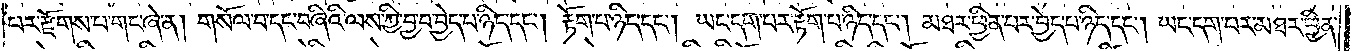པར་རྫོགས་པ་གང་ཞེ་ན། གསོལ་བ་དང་བཞིའི་ལས་ཀྱི་བྱ་བ་བྱེད་པ་ཉིད་དང༌། རྟོག་པ་ཉིད་དང༌། ཡང་དག་པར་རྟོག་པ་ཉིད་དང༌། མཐར་ཕྱིན་པར་བྱེད་པ་ཉིད་དང༌། ཡང་དག་པར་མཐར་བྱིན་
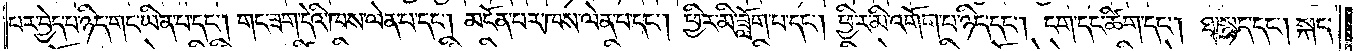པར་བྱེད་པ་ཉིད་གང་ཡིན་པ་དང༌། གང་ཟག་དེའི་ཁས་ལེན་པ་དང༌། མངོན་པར་ཁས་ལེན་པ་དང༌། ཕྱིར་མི་ཟློག་པ་དང༌། ཕྱིར་མི་འགོག་པ་ཉིད་དང༌། ངག་དང་ཚིག་དང༌། ཐ་སྙད་དང༌། སྐད་
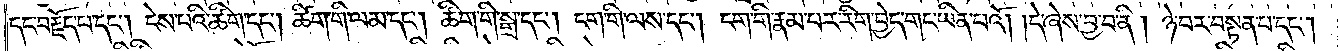དང་བརྗོད་པ་དང༌། ངེས་པའི་ཚིག་དང༌། ཚིག་གི་ལམ་དང༌། ཚིག་གི་སྒྲ་དང༌། ངག་གི་ལས་དང༌། ངག་གི་རྣམ་པར་རིག་བྱེད་གང་ཡིན་པའོ། །དེ་ཞེས་བྱ་བ་ནི། ཉེ་བར་བསྟན་པ་དང༌།
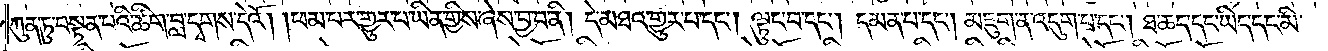ཀུན་ཏུ་བསྟན་པའི་ཚིག་བླ་དྭགས་དེའོ། །ཕམ་པར་གྱུར་པ་ཡིན་གྱིས་ཞེས་བྱ་བ་ནི། དེ་མཐའ་གྱུར་པ་དང༌། ལྟུང་བ་དང༌། དམན་པ་དང༌། མཇུག་ན་འདུག་པ་དང༌། ཐ་ཆད་དང་ཡིད་དང་མི་
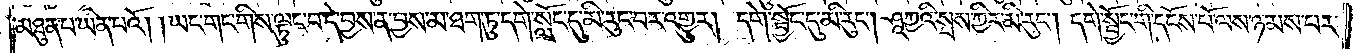མཐུན་པ་ཡིན་པའོ། །ཡང་གང་གིས་ལྟུང་བ་དེ་བྱས་ན་བྱས་མ་ཐག་ཏུ་དགེ་སློང་དུ་མི་རུང་བར་འགྱུར། དགེ་སྦྱོང་དུ་མི་རུང༌། ཤཱཀྱའི་སྲས་ཀྱིར་མི་རུང༌། དགེ་སྦྱོང་གི་དངོས་པོ་ལས་ཉམས་པར་
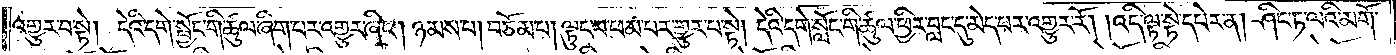འགྱུར་པ་སྟེ། དེའི་དགེ་སྦྱོང་གི་ཚུལ་ཞིག་པར་འགྱུར་ཞིང༌། ཉམས་པ། བཅོམ་པ། ལྟུང་བ་ཕམ་པར་གྱུར་པ་སྟེ། དེའི་དགེ་སློང་གི་ཚུལ་ཕྱིར་བླང་དུ་མེད་པར་འགྱུར་རོ། །འདི་ལྟ་སྟེ་དཔེར་ན། ཤིང་ཏ་ལའི་མགོ་
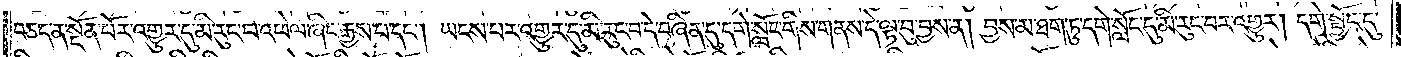བཅད་སྔོན་པོར་འགྱུར་དུ་མི་རུང་བ་འཕེལ་ཞིང་རྒྱས་པ་དང༌། ཡངས་པར་འགྱུར་དུ་མི་རུང་བ་དེ་བཞིན་དུ་དགེ་སློང་གིས་གནས་དེ་ལྟ་བུ་བྱས་ན། བྱས་མ་ཐག་ཏུ་དགེ་སློང་དུ་མི་རུང་བར་འགྱུར། དགེ་སྦྱོང་དུ་
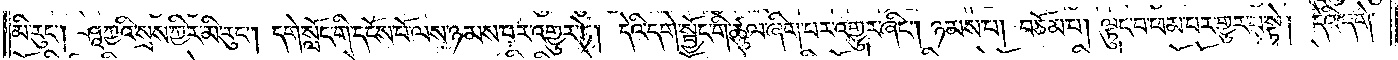མི་རུང༌། ཤཱཀྱའི་སྲས་ཀྱིར་མི་རུང༌། དགེ་སློང་གི་དངོས་པོ་ལས་ཉམས་པར་འགྱུར་ཏེ། དེའི་དགེ་སྦྱོང་གི་ཚུལ་ཞིག་པར་འགྱུར་ཞིང༌། ཉམས་པ། བཅོམ་པ། ལྟུང་བ་ཕམ་པར་གྱུར་པ་སྟེ། དེའི་དགེ་
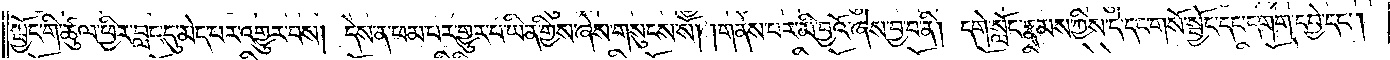སྦྱོང་གི་ཚུལ་ཕྱིར་བླང་དུ་མེད་པར་འགྱུར་བས། དེས་ན་ཕམ་པར་གྱུར་པ་ཡིན་གྱིས་ཞེས་གསུངས་སོ། །གནས་པར་མི་བྱའོ་ཞེས་བྱ་བ་ནི། དགེ་སློང་རྣམས་ཀྱིས་དེ་དང་གསོ་སྦྱོང་དང་དགག་དབྱེ་དང༌།
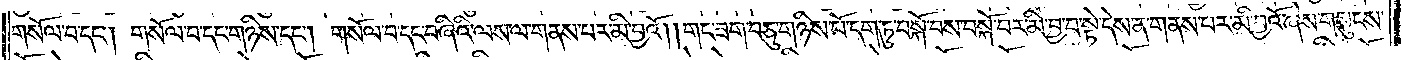གསོལ་བ་དང༌། གསོལ་བ་དང་གཉིས་དང༌། གསོལ་བ་དང་བཞིའི་ལས་ལ་གནས་པར་མི་བྱའོ། །གང་ཟག་བཅུ་གཉིས་པོ་དག་ཏུ་བསྐོ་བས་བསྐོ་བར་མི་བྱ་བ་སྟེ་དེས་ན་གནས་པར་མི་བྱའོ་ཞེས་གསུངས་
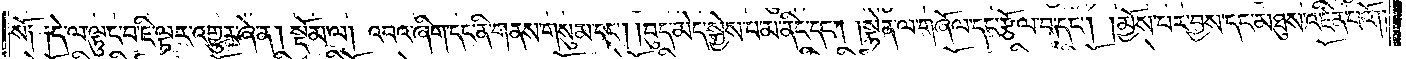སོ༑ ༑དེ་ལ་ལྟུང་བ་ཇི་ལྟར་འགྱུར་ཞེ་ན། སྡོམ་ལ། འབའ་ཞིག་དང་ནི་གནས་གསུམ་དང༌། །བུད་མེད་སྐྱེས་པ་མ་ནིང་དང༌། །སྟེན་ལ་གཞོལ་དང་རྩོལ་བ་དང༌། །མྱོས་པར་བྱས་དང་མཐུས་འཛིན་པའོ༎
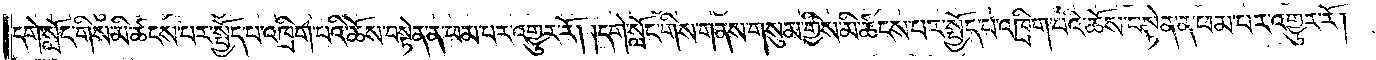དགེ་སློང་གིས་མི་ཚངས་པར་སྤྱོད་པ་འཁྲིག་པའི་ཆོས་བསྟེན་ན་ཕམ་པར་འགྱུར་རོ། །དགེ་སློང་གིས་གནས་གསུམ་གྱིས་མི་ཚངས་པར་སྤྱོད་པ་འཁྲིག་པའི་ཆོས་བསྟེན་ན་ཕམ་པར་འགྱུར་རོ། །
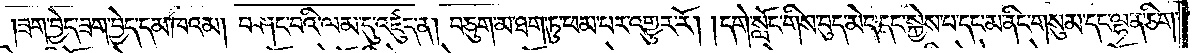།ཟག་བྱེད་ཟག་བྱེད་དམ་ཁའམ། བཤང་བའི་ལམ་དུ་འཛུད་ན། བཅུག་མ་ཐག་ཏུ་ཕམ་པར་འགྱུར་རོ། །དགེ་སློང་གིས་བུད་མེད་དང་སྐྱེས་པ་དང་མ་ནིང་གསུམ་དང་ལྷན་ཅིག་
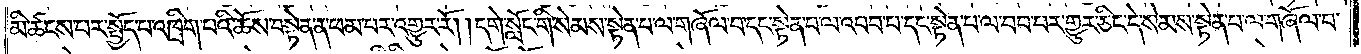མི་ཚངས་པར་སྤྱོད་པ་འཁྲིག་པའི་ཆོས་བསྟེན་ན་ཕམ་པར་འགྱུར་རོ། །དགེ་སློང་གི་སེམས་སྟེན་པ་ལ་གཞོལ་བ་དང་སྟེན་པ་ལ་འབབ་པ་དང་སྟེན་པ་ལ་བབ་པར་གྱུར་ཅིང་དེ་སེམས་སྟེན་པ་ལ་གཞོལ་བ་
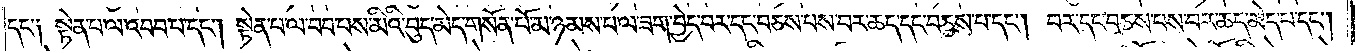དང་༑ སྟེན་པ་ལ་འབབ་པ་དང༌། སྟེན་པ་ལ་བབ་པས་མིའི་བུད་མེད་གསོན་པོ་མ་ཉམས་པ་ལ་ཟག་བྱེད་བར་དང་བཅས་པས་བར་ཆད་དང་བཅས་པ་དང༌། བར་དང་བཅས་པས་བར་ཆད་མེད་པ་དང༌།
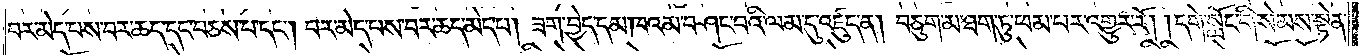བར་མེད་པས་བར་ཆད་དང་བཅས་པ་དང༌། བར་མེད་པས་བར་ཆད་མེད་པ། ཟག་བྱེད་དམ་ཁའམ་བཤང་བའི་ལམ་དུ་འཛུད་ན། བཅུག་མ་ཐག་ཏུ་ཕམ་པར་འགྱུར་རོ། །དགེ་སློང་གི་སེམས་སྟེན་
